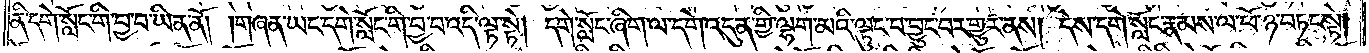ནི་དགེ་སློང་གི་བྱ་བ་ཡིན་ནོ། །གཞན་ཡང་དགེ་སློང་གི་བྱ་བ་འདི་ལྟ་སྟེ། དགེ་སློང་ཞིག་ལ་དགེ་འདུན་གྱི་ལྷག་མའི་ལྟུང་བ་བྱུང་བར་གྱུར་ནས། དེས་དགེ་སློང་རྣམས་ལ་ཕོ་ཉ་བཏང་སྟེ།
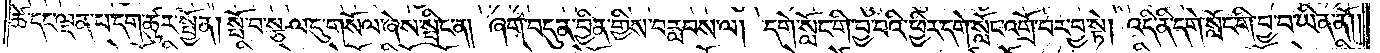ཚེ་དང་ལྡན་པ་དག་ཚུར་སྤྱོན། སྤོ་བ་སྩལ་དུ་གསོལ་ཞེས་སྤྲིང་ན། ཞག་བདུན་བྱིན་གྱིས་བརླབས་ལ། དགེ་སློང་གི་བྱ་བའི་ཕྱིར་དགེ་སློང་འགྲོ་བར་བྱ་སྟེ། འདི་ནི་དགེ་སློང་གི་བྱ་བ་ཡིན་ནོ༎
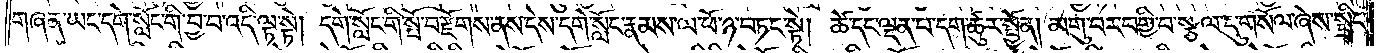གཞན་ཡང་དགེ་སློང་གི་བྱ་བ་འདི་ལྟ་སྟེ། དགེ་སློང་གི་སྤོ་བ་རྫོགས་ནས་དེས་དགེ་སློང་རྣམས་ལ་ཕོ་ཉ་བཏང་སྟེ། ཚེ་དང་ལྡན་པ་དག་ཚུར་སྤྱོན། མགུ་བར་བགྱི་བ་སྩལ་དུ་གསོལ་ཞེས་སྤྲིང་
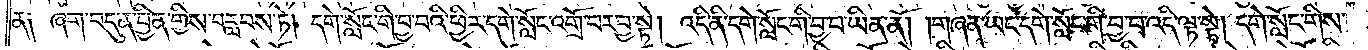ན༑  ཞག་བདུན་བྱིན་གྱིས་བརླབས་ཏེ། དགེ་སློང་གི་བྱ་བའི་ཕྱིར་དགེ་སློང་འགྲོ་བར་བྱ་སྟེ། འདི་ནི་དགེ་སློང་གི་བྱ་བ་ཡིན་ནོ། །གཞན་ཡང་དགེ་སློང་གི་བྱ་བ་འདི་ལྟ་སྟེ། དགེ་སློང་གིས་
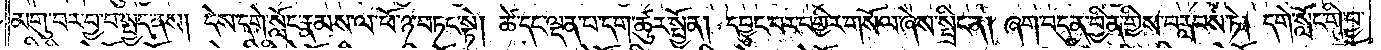མགུ་བར་བྱ་བ་སྤྱད་ནས། དེས་དགེ་སློང་རྣམས་ལ་ཕོ་ཉ་བཏང་སྟེ། ཚེ་དང་ལྡན་པ་དག་ཚུར་སྤྱོན། དབྱུང་བར་བགྱིར་གསོལ་ཞེས་སྤྲིང་ན། ཞག་བདུན་བྱིན་གྱིས་བརླབས་ཏེ། དགེ་སློང་གི་བྱ་
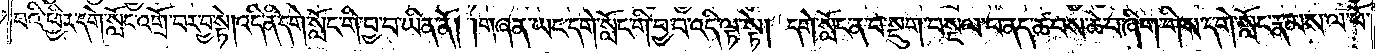བའི་ཕྱིར་དགེ་སློང་འགྲོ་བར་བྱ་སྟེ། འདི་ནི་དགེ་སློང་གི་བྱ་བ་ཡིན་ནོ། །གཞན་ཡང་དགེ་སློང་གི་བྱ་བ་འདི་ལྟ་སྟེ། དགེ་སློང་ན་བ་སྡུག་བསྔལ་བ་ནད་ཚབས་ཆེ་བ་ཞིག་གིས་དགེ་སློང་རྣམས་ལ་ཕོ་
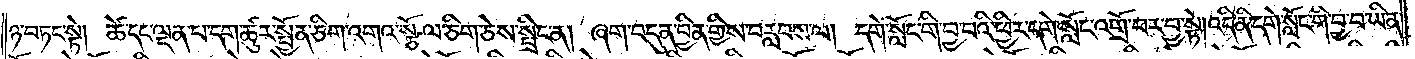ཉ་བཏང་སྟེ། ཚེ་དང་ལྡན་པ་དག་ཚུར་སྤྱོན་ཅིག་འགའ་སྩོལ་ཅིག་ཅེས་སྤྲིང་ན། ཞག་བདུན་བྱིན་གྱིས་བརླབས་ལ། དགེ་སློང་གི་བྱ་བའི་ཕྱིར་དགེ་སློང་འགྲོ་བར་བྱ་སྟེ། འདི་ནི་དགེ་སློང་གི་བྱ་བ་ཡིན་
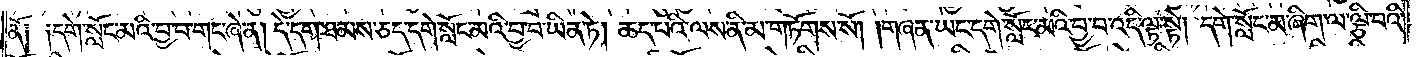ནོ༑ ༑དགེ་སློང་མའི་བྱ་བ་གང་ཞེ་ན། དེ་དག་ཐམས་ཅད་དགེ་སློང་མའི་བྱ་བ་ཡིན་ཏེ། ཆད་པའི་ལས་ནི་མ་གཏོགས་སོ། །གཞན་ཡང་དགེ་སློང་མའི་བྱ་བ་འདི་ལྟ་སྟེ། དགེ་སློང་མ་ཞིག་ལ་ལྕི་བའི་
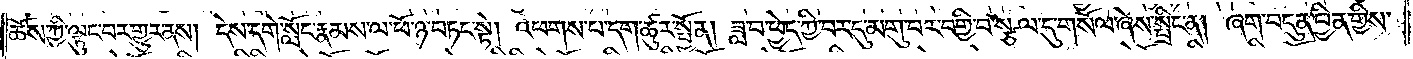ཆོས་ཀྱི་ལྟུང་བར་གྱུར་ནས། དེས་དགེ་སློང་རྣམས་ལ་ཕོ་ཉ་བཏང་སྟེ། འཕགས་པ་དག་ཚུར་སྤྱོན། ཟླ་བ་ཕྱེད་ཀྱི་བར་དུ་མགུ་བར་བགྱི་བ་སྩལ་དུ་གསོལ་ཞེས་སྤྲིང་ན། ཞག་བདུན་བྱིན་གྱིས་
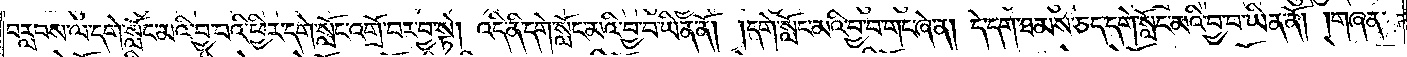བརླབས་ལ་དགེ་སློང་མའི་བྱ་བའི་ཕྱིར་དགེ་སློང་འགྲོ་བར་བྱ་སྟེ། འདི་ནི་དགེ་སློང་མའི་བྱ་བ་ཡིན་ནོ། །དགེ་སློང་མའི་བྱ་བ་གང་ཞེ་ན། དེ་དག་ཐམས་ཅད་དགེ་སློང་མའི་བྱ་བ་ཡིན་ནོ། །གཞན་
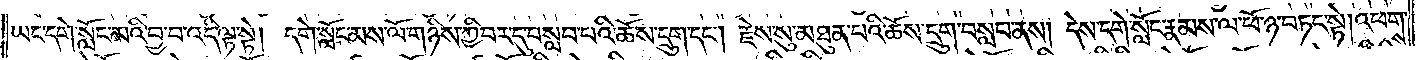ཡང་དགེ་སློང་མའི་བྱ་བ་འདི་ལྟ་སྟེ། དགེ་སློང་མས་ལོ་གཉིས་ཀྱི་བར་དུ་བསླབ་པའི་ཆོས་དྲུག་དང༌། རྗེས་སུ་མཐུན་པའི་ཆོས་དྲུག་བསླབ་ནས། དེས་དགེ་སློང་རྣམས་ལ་ཕོ་ཉ་བཏང་སྟེ། འཕགས་
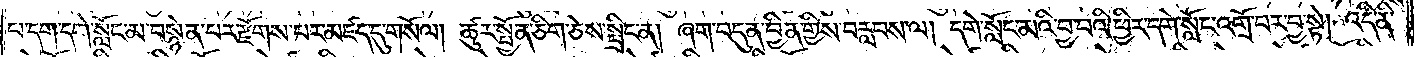པ་དག་དགེ་སློང་མ་བསྙེན་པར་རྫོགས་པར་མཛད་དུ་གསོལ། ཚུར་སྤྱོན་ཅིག་ཅེས་སྤྲིང་ན། ཞག་བདུན་བྱིན་གྱིས་བརླབས་ལ། དགེ་སློང་མའི་བྱ་བའི་ཕྱིར་དགེ་སློང་འགྲོ་བར་བྱ་སྟེ། འདི་ནི་
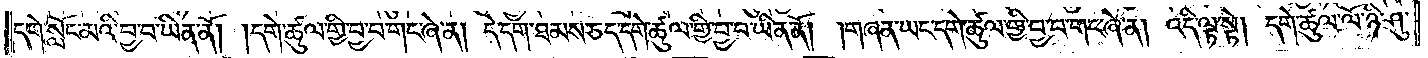དགེ་སློང་མའི་བྱ་བ་ཡིན་ནོ། །དགེ་ཚུལ་གྱི་བྱ་བ་གང་ཞེ་ན། དེ་དག་ཐམས་ཅད་དགེ་ཚུལ་གྱི་བྱ་བ་ཡིན་ནོ། །གཞན་ཡང་དགེ་ཚུལ་གྱི་བྱ་བ་གང་ཞེ་ན། འདི་ལྟ་སྟེ། དགེ་ཚུལ་ལོ་ཉི་ཤུ་
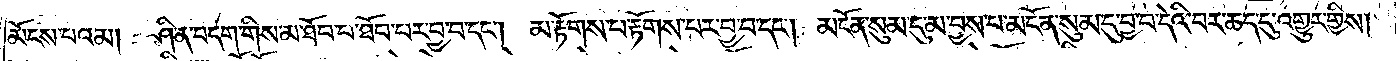མོངས་པའམ། ཤི་ན་བདག་གིས་མ་ཐོབ་པ་ཐོབ་པར་བྱ་བ་དང༌། མ་རྟོགས་པ་རྟོགས་པར་བྱ་བ་དང༌། མངོན་སུམ་དུ་མ་བྱས་པ་མངོན་སུམ་དུ་བྱ་བ་དེའི་བར་ཆད་དུ་འགྱུར་གྱིས།
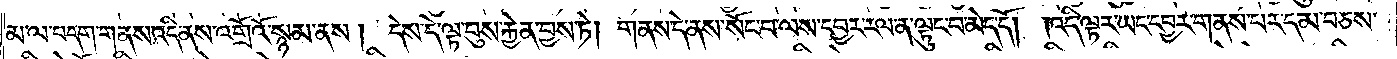མ་ལ་བདག་གནས་འདི་ནས་འགྲོའོ་སྙམ་ནས། དེས་དེ་ལྟ་བུས་རྐྱེན་བྱས་ཏེ། གནས་དེ་ནས་སོང་བ་ལས་དབྱར་རལ་ན་ལྟུང་བ་མེད་དོ། །འདི་ལྟར་ཡང་དབྱར་གནས་པར་དམ་བཅས་
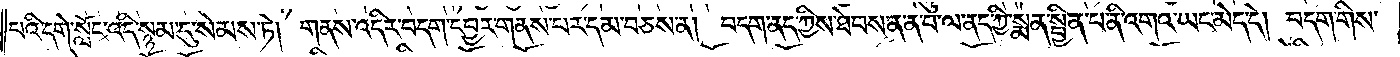པའི་དགེ་སློང་འདི་སྙམ་དུ་སེམས་ཏེ། གནས་འདིར་བདག་དབྱར་གནས་པར་དམ་བཅས་ན། བདག་ནད་ཀྱིས་ཐེབས་ན་ན་བ་ལ་ནད་ཀྱི་སྨན་སྦྱིན་པ་ནི་འགའ་ཡང་མེད་དེ། བདག་གིས་
